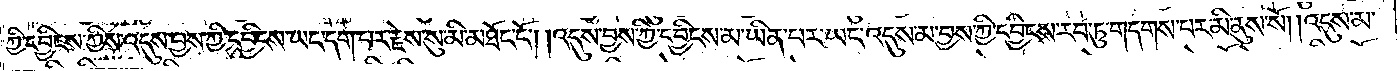ཀྱི་དབྱིངས་ཀྱིས་འདུས་བྱས་ཀྱི་དབྱིངས་ཡང་དག་པར་རྗེས་སུ་མི་མཐོང་ངོ༌། །འདུས་བྱས་ཀྱི་དབྱིངས་མ་ཡིན་པར་ཡང་འདུས་མ་བྱས་ཀྱི་དབྱིངས་རབ་ཏུ་གདགས་པར་མི་ནུས་སོ། །འདུས་མ་
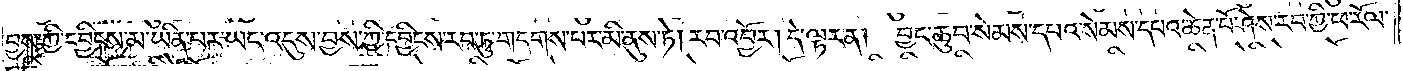བྱས་ཀྱི་དབྱིངས་མ་ཡིན་པར་ཡང་འདུས་བྱས་ཀྱི་དབྱིངས་རབ་ཏུ་གདགས་པར་མི་ནུས་ཏེ། རབ་འབྱོར། དེ་ལྟར་ན། བྱང་ཆུབ་སེམས་དཔའ་སེམས་དཔའ་ཆེན་པོ་ཤེས་རབ་ཀྱི་ཕ་རོལ་
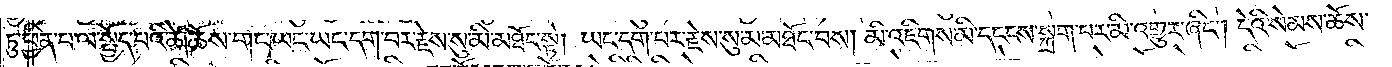ཏུ་ཕྱིན་པ་ལ་སྤྱོད་པའི་ཚེ། ཆོས་གང་ཡང་ཡང་དག་པར་རྗེས་སུ་མི་མཐོང་སྟེ། ཡང་དག་པར་རྗེས་སུ་མ་མཐོང་བས། མི་འཇིགས་མི་དངངས་སྐྲག་པར་མི་འགྱུར་ཞིང༌། དེའི་སེམས་ཆོས་
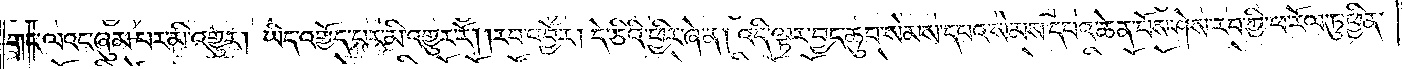གང་ལའང་ཞུམ་པར་མི་འགྱུར། ཡིད་འགྱོད་པར་མི་འགྱུར་རོ། །རབ་འབྱོར། དེ་ཅིའི་ཕྱིར་ཞེ་ན། འདི་ལྟར་བྱང་ཆུབ་སེམས་དཔའ་སེམས་དཔའ་ཆེན་པོས་ཤེས་རབ་ཀྱི་ཕ་རོལ་ཏུ་ཕྱིན་
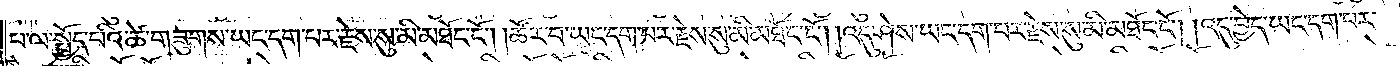པ་ལ་སྤྱོད་པའི་ཚེ་གཟུགས་ཡང་དག་པར་རྗེས་སུ་མི་མཐོང་ངོ༌། །ཚོར་བ་ཡང་དག་པར་རྗེས་སུ་མི་མཐོང་ངོ༌། །འདུ་ཤེས་ཡང་དག་པར་རྗེས་སུ་མི་མཐོང་ངོ༌། །འདུ་བྱེད་ཡང་དག་པར་
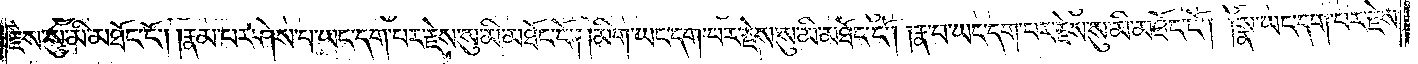རྗེས་སུ་མི་མཐོང་ངོ༌། །རྣམ་པར་ཤེས་པ་ཡང་དག་པར་རྗེས་སུ་མི་མཐོང་ངོ༌། །མིག་ཡང་དག་པར་རྗེས་སུ་མི་མཐོང་ངོ༌། །རྣ་བ་ཡང་དག་པར་རྗེས་སུ་མི་མཐོང་ངོ༌། །སྣ་ཡང་དག་པར་རྗེས་
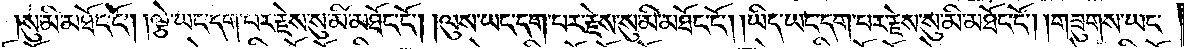སུ་མི་མཐོང་ངོ༌། །ལྕེ་ཡང་དག་པར་རྗེས་སུ་མི་མཐོང་ངོ༌། །ལུས་ཡང་དག་པར་རྗེས་སུ་མི་མཐོང་ངོ༌། །ཡིད་ཡང་དག་པར་རྗེས་སུ་མི་མཐོང་ངོ༌། །གཟུགས་ཡང་
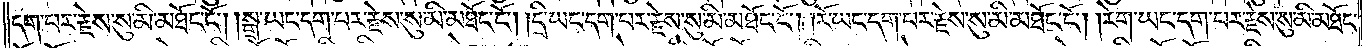དག་པར་རྗེས་སུ་མི་མཐོང་ངོ༌། །སྒྲ་ཡང་དག་པར་རྗེས་སུ་མི་མཐོང་ངོ༌། །དྲི་ཡང་དག་པར་རྗེས་སུ་མི་མཐོང་ངོ༌། །རོ་ཡང་དག་པར་རྗེས་སུ་མི་མཐོང་ངོ༌། །རེག་ཡང་དག་པར་རྗེས་སུ་མི་མཐོང་
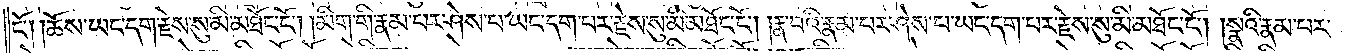ངོ༌། །ཆོས་ཡང་དག་རྗེས་སུ་མི་མཐོང་ངོ༌། །མིག་གི་རྣམ་པར་ཤེས་པ་ཡང་དག་པར་རྗེས་སུ་མི་མཐོང་ངོ༌། །རྣ་བའི་རྣམ་པར་ཤེས་པ་ཡང་དག་པར་རྗེས་སུ་མི་མཐོང་ངོ༌། །སྣའི་རྣམ་པར་
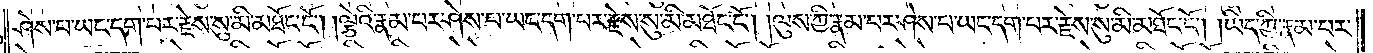ཤེས་པ་ཡང་དག་པར་རྗེས་སུ་མི་མཐོང་ངོ༌། །ལྕེའི་རྣམ་པར་ཤེས་པ་ཡང་དག་པར་རྗེས་སུ་མི་མཐོང་ངོ༌། །ལུས་ཀྱི་རྣམ་པར་ཤེས་པ་ཡང་དག་པར་རྗེས་སུ་མི་མཐོང་ངོ༌། །ཡིད་ཀྱི་རྣམ་པར་
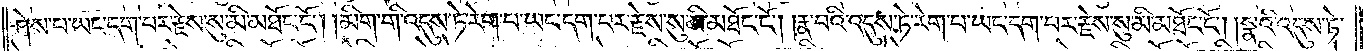ཤེས་པ་ཡང་དག་པར་རྗེས་སུ་མི་མཐོང་ངོ༌། །མིག་གི་འདུས་ཏེ་རེག་པ་ཡང་དག་པར་རྗེས་སུ་མི་མཐོང་ངོ༌། །རྣ་བའི་འདུས་ཏེ་རེག་པ་ཡང་དག་པར་རྗེས་སུ་མི་མཐོང་ངོ༌། །སྣའི་འདུས་ཏེ་
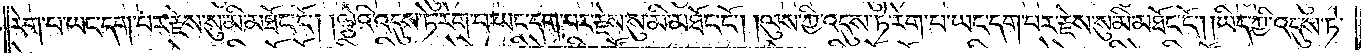རེག་པ་ཡང་དག་པར་རྗེས་སུ་མི་མཐོང་ངོ༌། །ལྕེའི་འདུས་ཏེ་རེག་པ་ཡང་དག་པར་རྗེས་སུ་མི་མཐོང་ངོ༌། །ལུས་ཀྱི་འདུས་ཏེ་རེག་པ་ཡང་དག་པར་རྗེས་སུ་མི་མཐོང་ངོ༌། །ཡིད་ཀྱི་འདུས་ཏེ་
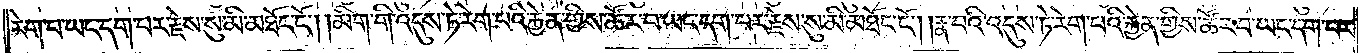རེག་པ་ཡང་དག་པར་རྗེས་སུ་མི་མཐོང་ངོ༌། །མིག་གི་འདུས་ཏེ་རེག་པའི་རྐྱེན་གྱིས་ཚོར་བ་ཡང་དག་པར་རྗེས་སུ་མི་མཐོང་ངོ༌། །རྣ་བའི་འདུས་ཏེ་རེག་པའི་རྐྱེན་གྱིས་ཚོར་བ་ཡང་དག་པར་
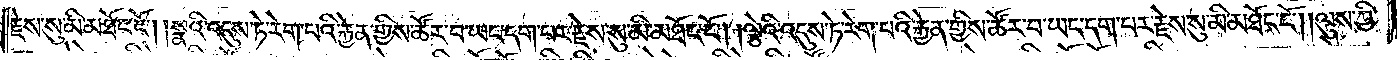རྗེས་སུ་མི་མཐོང་ངོ༌། །སྣའི་འདུས་ཏེ་རེག་པའི་རྐྱེན་གྱིས་ཚོར་བ་ཡང་དག་པར་རྗེས་སུ་མི་མཐོང་ངོ༌། །ལྕེའི་འདུས་ཏེ་རེག་པའི་རྐྱེན་གྱིས་ཚོར་བ་ཡང་དག་པར་རྗེས་སུ་མི་མཐོང་ངོ༌། །ལུས་ཀྱི་
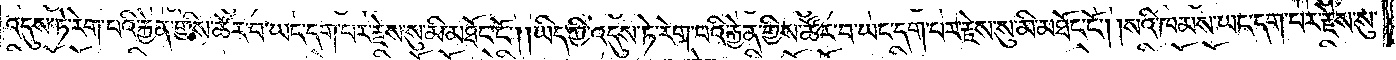འདུས་ཏེ་རེག་པའི་རྐྱེན་གྱིས་ཚོར་བ་ཡང་དག་པར་རྗེས་སུ་མི་མཐོང་ངོ༌། །ཡིད་ཀྱི་འདུས་ཏེ་རེག་པའི་རྐྱེན་གྱིས་ཚོར་བ་ཡང་དག་པར་རྗེས་སུ་མི་མཐོང་ངོ༌། །སའི་ཁམས་ཡང་དག་པར་རྗེས་སུ་
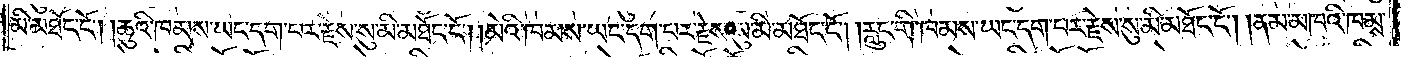མི་མཐོང་ངོ༌། །ཆུའི་ཁམས་ཡང་དག་པར་རྗེས་སུ་མི་མཐོང་ངོ༌། །མེའི་ཁམས་ཡང་དག་པར་རྗེས་སུ་མི་མཐོང་ངོ༌། །རླུང་གི་ཁམས་ཡང་དག་པར་རྗེས་སུ་མི་མཐོང་ངོ༌། །ནམ་མཁའི་ཁམས་
